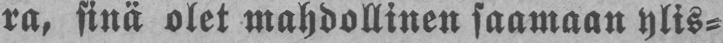ra, sinä olet mahdollinen saamaan ylis-
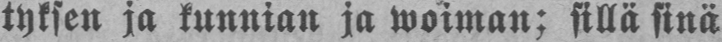tyksen ja kunnian ja woiman; sillä sinä
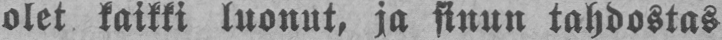olet kaikki luonut, ja sinun tahdostas
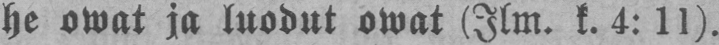he owat ja luodut owat (Ilm.k.4:11).
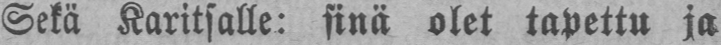Sekä Karitsalle: sinä olet tapettu ja
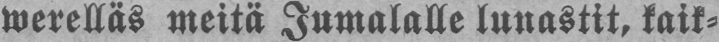werelläs meitä Jumalalle lunastit, kaik-
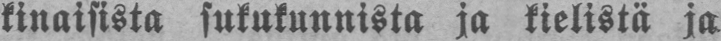kinaisista sukukunnista ja kielistä ja
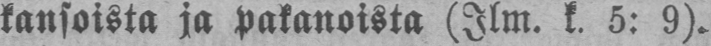kansoista ja pakanoista (Jlm.k.5:9).
